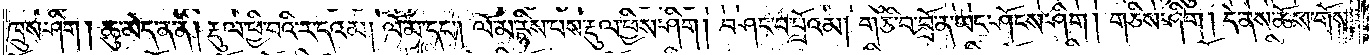ཁྲུས་ཤིག །ཆུ་མེད་ན་ནི། རྡུལ་ཕྱི་བའི་ར་དའམ། ལོ་མ་དང༌། ལོ་མ་རྙིས་པས་རྡུལ་ཕྱིས་ཤིག །བཤང་བ་བྲོའམ། གཅི་བ་བྲོ་ན་ཡང་ཤོངས་ཤིག །གཅིས་ཤིག །དེ་ནས་ཆོས་གོས་
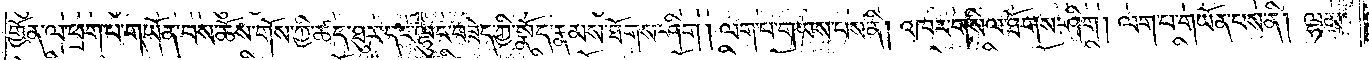གྱོན་ལ་ཕྲག་པ་གཡོན་པས་ཆོས་གོས་ཀྱི་ཚད་ཐུར་དང་ལྷུང་བཟེད་ཀྱི་སྣོད་རྣམས་ཐོགས་ཤིག །ལག་པ་གཡས་པས་ནི། འཁར་གསིལ་ཐོགས་ཤིག །ལག་པ་གཡོན་པས་ནི། ལྷམ་
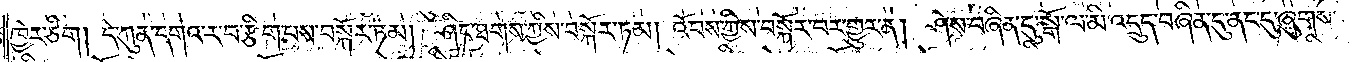ཁྱེར་ཅིག །དེ་ཀུན་དགའ་ར་བ་རྩིག་པས་བསྐོར་ཏམ། ཤིང་ཐགས་ཀྱིས་བསྐོར་ཏམ། འོབས་ཀྱིས་བསྐོར་བར་གྱུར་ན། ཤེས་བཞིན་དུ་སྒོ་ལ་མི་འདྲུད་བཞིན་དུ་ནང་དུ་ཞུགས་
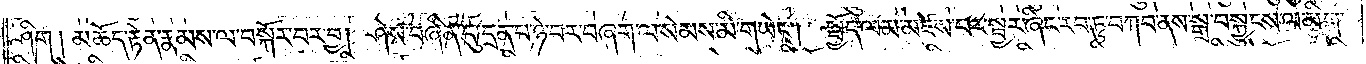ཤིག །མཆོད་རྟེན་རྣམས་ལ་བསྐོར་བར་བྱ། ཤེས་བཞིན་དུ་དྲན་པ་ཉེ་བར་བཞག་ལ་སེམས་མི་གཡེང༌། སྤྱོད་ལམ་མཛེས་པར་སྦྱར་ཞིང་རབ་ཏུ་བཀབ་ནས་སྒྲ་བསྐྱུངས་ལ་མིག་
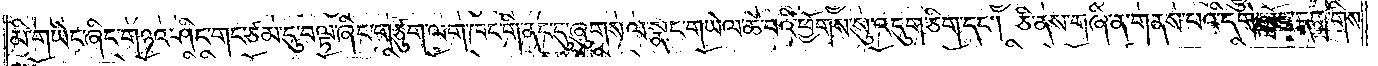མི་གཡེང་ཞིང་གཉའ་ཤིང་གང་ཙམ་དུ་བལྟ་ཞིང་གཙུག་ལག་ཁང་གི་ནང་དུ་ཞུགས་ལ་སྣང་གཡེལ་ཆེ་བའི་ཕྱོགས་སུ་འདུག་ཅིག་དང༌། ཅི་ནས་གཞི་ན་གནས་པའི་དགེ་སློང་དག་གིས་
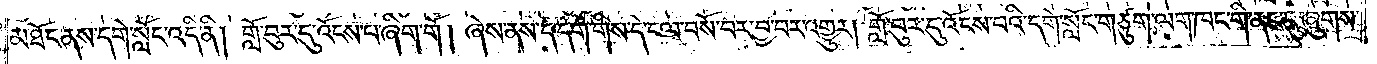མཐོང་ནས་དགེ་སློང་འདི་ནི། གློ་བུར་དུ་འོངས་པ་ཞིག་གོ། །ཞེས་ནས་དེ་དག་གིས་དེ་ངལ་བསོ་བར་བྱ་བར་འགྱུར། གློ་བུར་དུ་འོངས་པའི་དགེ་སློང་གཙུག་ལག་ཁང་གི་ནང་དུ་ཞུགས་
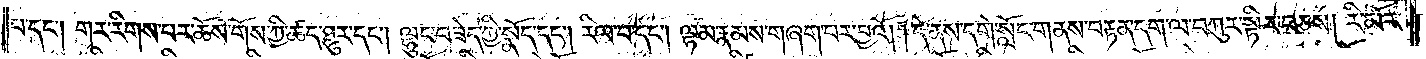པ་དང༌། གར་རིགས་པར་ཆོས་གོས་ཀྱི་ཚད་ཐུར་དང༌། ལྷུང་བཟེད་ཀྱི་སྣོད་དང༌། རིལ་བ་དང༌། ལྷམ་རྣམས་གཞག་པར་བྱའོ། །དེ་ནས་དགེ་སློང་གནས་བརྟན་དག་ལ་བཀུར་སྟིར་བཅས། རི་མོར་
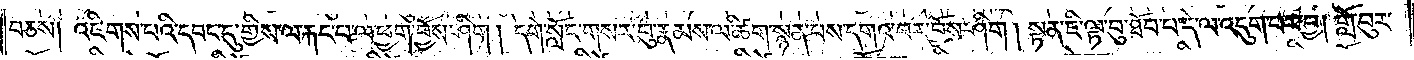བཅས། འཇིགས་པའི་དབང་དུ་གྱིས་ལ་རྐང་པ་ལ་ཕྱག་བྱོས་ཤིག །དགེ་སློང་གསར་བུ་རྣམས་ལ་ཚིག་སྙན་པས་དགའ་བར་བྱོས་ཤིག །སྟན་ཇི་ལྟ་བུ་ཐོབ་པ་དེ་ལ་འདུག་པར་བྱ། གློ་བུར་
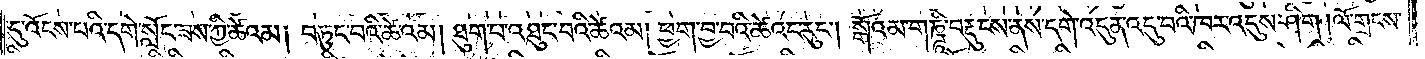དུ་འོངས་པའི་དགེ་སློང་ཟས་ཀྱི་ཚེའམ། བཏུང་བའི་ཚེ་འམ། ཐུག་པ་འཐུང་བའི་ཚེའམ། ཕྱག་བྱ་བའི་ཚེའང་རུང༌། སྒོའམ་གཎྜཱི་བརྡུངས་ནས་དགེ་འདུན་འདུ་བའི་ཁར་འདུས་ཤིག །ལོ་གྲངས་
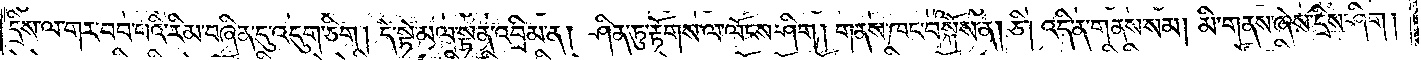དྲིས་ལ་གར་བབ་པའི་རིམ་བཞིན་དུ་འདུག་ཅིག། དེ་སྟེ་མལ་སྟན་འབྲིམ་ན། ཤིན་ཏུ་རྟོགས་ལ་ལོངས་ཤིག །གནས་ཁང་བསྐོས་ན། ཅི། འདི་ན་གནས་སམ། མི་གནས་ཞེས་དྲིས་ཤིག།
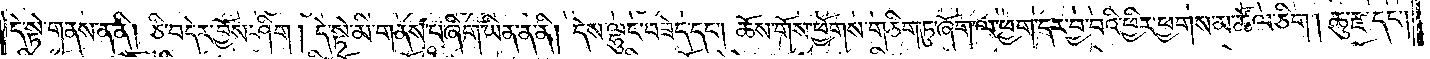དེ་སྟེ་གནས་ན་ནི། ཅི་བདེར་བྱོས་ཤིག །དེ་སྟེ་མི་གནས་པ་ཞིག་ཡིན་ན་ནི། དེས་ལྷུང་བཟེད་དང༌། ཆོས་གོས་ཕྱོགས་གཅིག་ཏུ་ཞོག་ལ་ཕྱག་དར་བྱ་བའི་ཕྱིར་ཕྱགས་མ་ཚོལ་ཅིག །ཆུ་རྫ་དང༌།
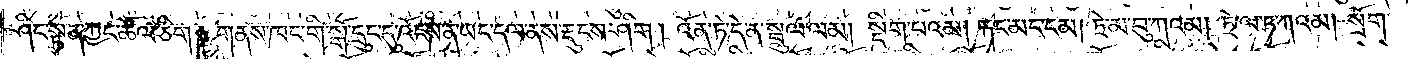ཤིང་སྟན་ཀྱང་ཚོལ་ཅིག །གནས་ཁང་གི་སྒོ་དྲུང་དུ་འོངས་ན་ཡང་དལ་ནས་རྡུངས་ཤིག །འོན་ཏེ་དེ་ན་སྦྲུལ་ལམ། སྡིག་པའམ། རྐང་མང་ངམ། ཏྲེ་མ་བུ་ཀའམ། ཏྲེ་ལ་ཏ་ཀའམ། སྲོག་
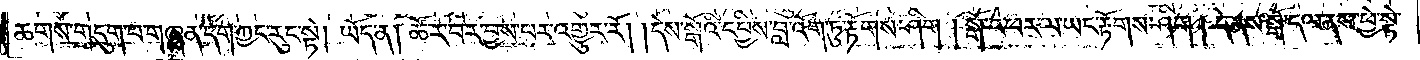ཆགས་གདུག་པ་གཞན་དག་ཀྱང་རུང་སྟེ། ཡོད་ན། ཚོར་བར་བྱས་པར་འགྱུར་རོ། །དེས་སྒོའི་དཔྱིས་བླ་འོག་ཏུ་རྟོགས་ཤིག །སྒོ་འཕར་ལ་ཡང་རྟོགས་ཤིག །དེ་ནས་སྒོ་དལ་ནས་ཕྱེ་སྟེ་
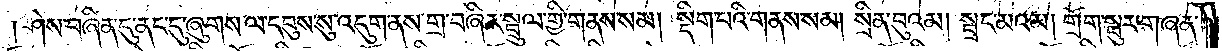ཤེས་བཞིན་དུ་ནང་དུ་ཞུགས་ལ་དབུས་སུ་འདུག་ནས་གྲ་བཞིར་སྦྲུལ་གྱི་གནས་སམ། སྡིག་པའི་གནས་སམ། སྲིན་བུའམ། སྦྲང་མའམ། གྲོག་སྦུར་གཞན་
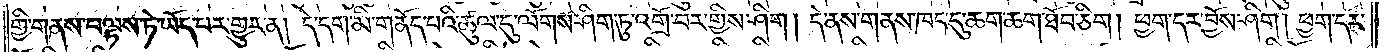གྱི་གནས་བལྟས་ཏེ་ཡོད་པར་གྱུར་ན། དེ་དག་མི་གནོད་པའི་ཚུལ་དུ་ལོགས་ཤིག་ཏུ་འགྲོ་བར་གྱིས་ཤིག། དེ་ནས་གནས་ཁང་དུ་ཆག་ཆག་ཐོབ་ཅིག །ཕྱག་དར་བྱོས་ཤིག། ཕྱག་དར་
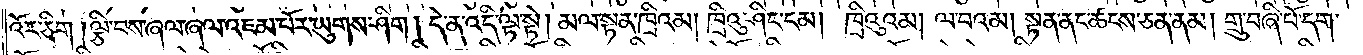འོར་ཅིག །ལྕི་བས་ཞལ་ཞལ་འཇམ་པོར་ཡུགས་ཤིག །དེ་ན་འདི་ལྟ་སྟེ། མལ་སྟན་ཁྲིའམ། ཁྲིའུ་ཤིང་ངམ། ཁྲིའུའམ། ལ་བའམ། སྟན་ནང་ཚངས་ཅན་ནམ། གྲུ་བཞི་པོ་དག་
